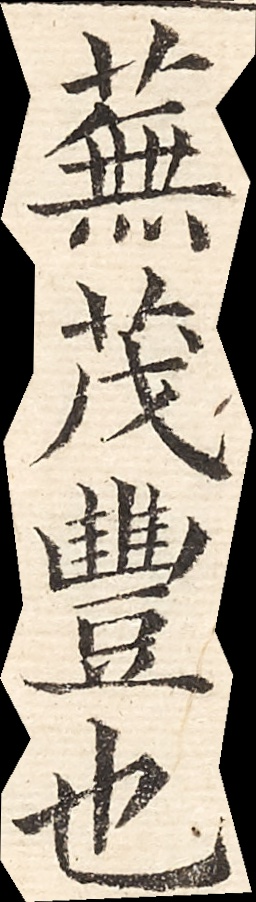蕪茂豐也
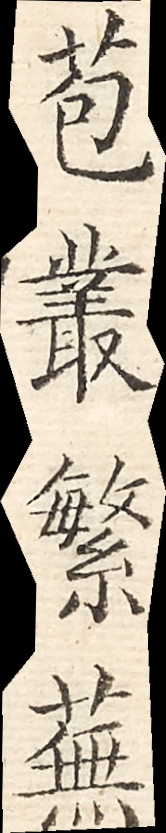苞叢繁蕪
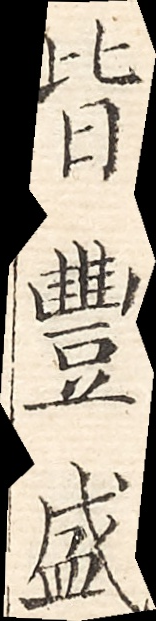皆豐盛
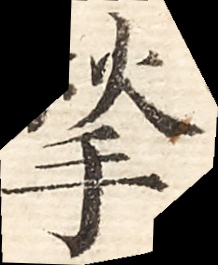揫
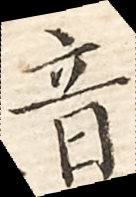音
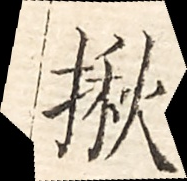揪
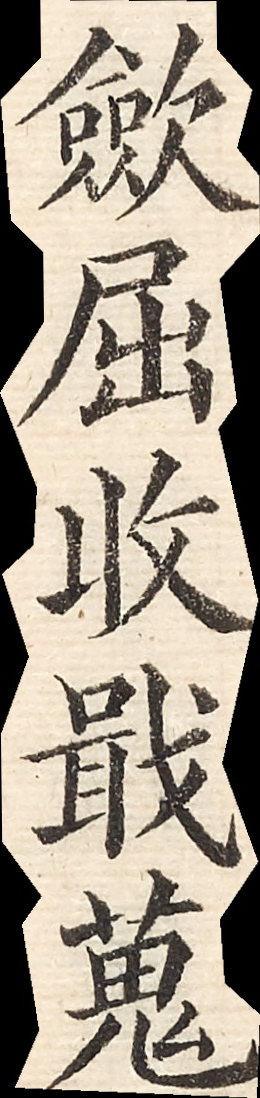斂屈收戢蒐
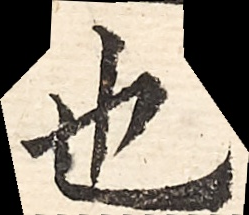也
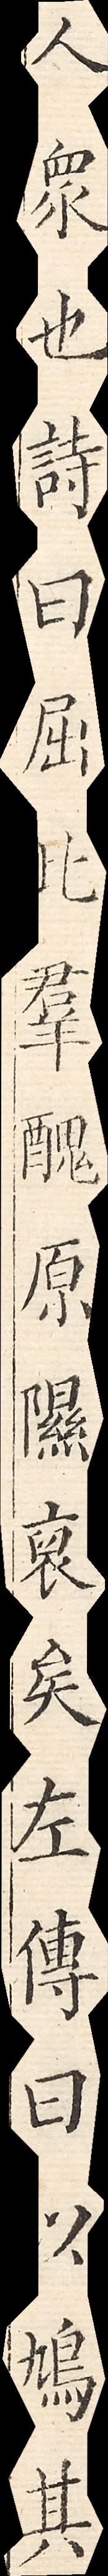以其聚人衆也詩曰屈此羣醜原隰裒矣左傳曰以鳩其
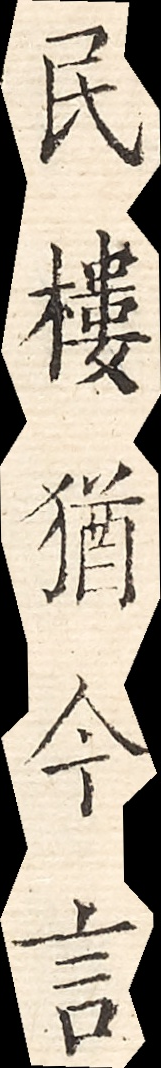民樓猶今言
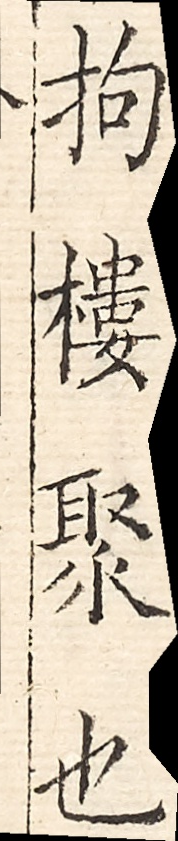拘樓聚也
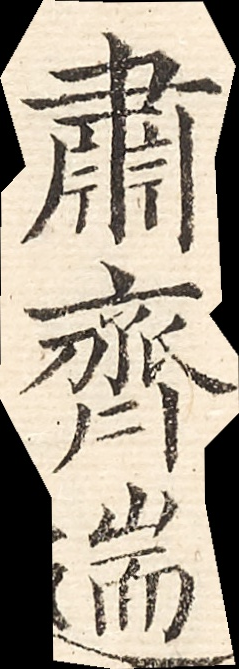肅齊遄
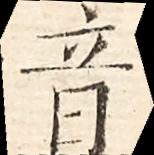音
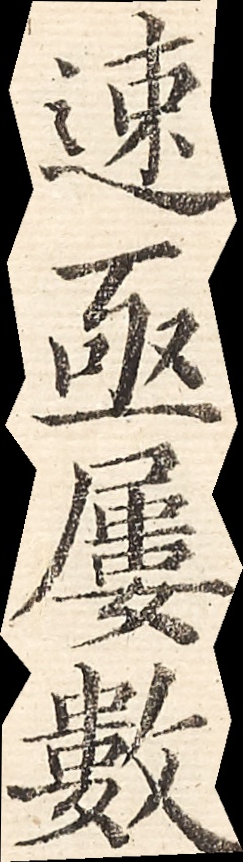速亟屢數
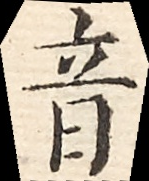音
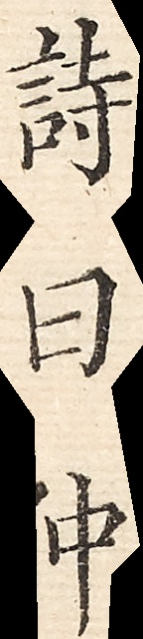詩曰仲
